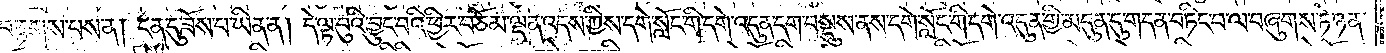བརྟགས་པས་ན། ངན་དུ་ཟོས་པ་ཡིན་ན། དེ་ལྟ་བུའི་བྱུང་བའི་ཕྱིར་བཅོམ་ལྡན་འདས་ཀྱིས་དགེ་སློང་གི་དགེ་འདུན་དག་བསྡུས་ནས་དགེ་སློང་གི་དགེ་འདུན་གྱི་མདུན་དུ་གདན་བཏིང་བ་ལ་བཞུགས་ཏེ་ཉན་
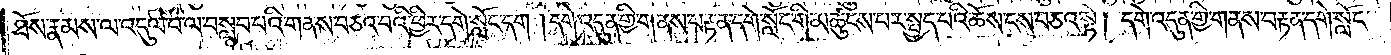ཐོས་རྣམས་ལ་འདུལ་བ་ལ་བསླབ་པའི་གནས་བཅའ་བའི་ཕྱིར་དགེ་སློང་དག །དགེ་འདུན་གྱི་གནས་བརྟན་དགེ་སློང་གི་མཚུངས་པར་སྤྱད་པའི་ཆོས་ངས་བཅའ་སྟེ། དགེ་འདུན་གྱི་གནས་བརྟན་དགེ་སློང་
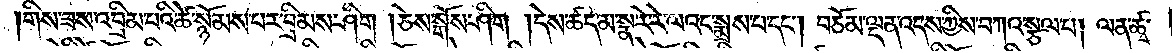གིས་ཟས་འབྲིམ་པའི་ཚེ་སྙོམས་པར་བྲིམས་ཤིག །ཅེས་སྒོས་ཤིག །དེས་ཚད་མ་སྣ་རེ་རེ་ལའང་སྨྲས་པ་དང༌། བཅོམ་ལྡན་འདས་ཀྱིས་བཀའ་སྩལ་པ། ལན་ཚྭ་
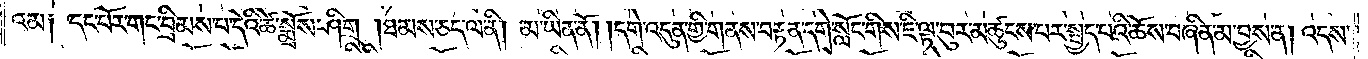འམ༑ དང་པོར་གང་བྲིམས་པ་དེའི་ཚེ་སྨྲོས་ཤིག །ཐམས་ཅད་ལ་ནི། མ་ཡིན་ནོ། །དགེ་འདུན་གྱི་གནས་བརྟན་དགེ་སློང་གིས་ཇི་ལྟར་བུར་མཚུངས་པར་སྤྱད་པའི་ཆོས་བཞིན་མ་བྱས་ན། འདས་
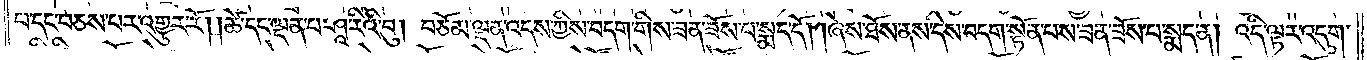པ་དང་བཅས་པར་འགྱུར་རོ། །ཚེ་དང་ལྡན་པ་ཤཱ་རིའི་བུ། བཅོམ་ལྡན་འདས་ཀྱིས་བདག་གིས་ཟན་ཟོས་པ་སྨད་དོ། །ཞེས་ཐོས་ནས་དེས་བདག་སྟོན་པས་ཟན་ཟོས་པ་སྨད་ན། འདི་ལྟར་འདུག་
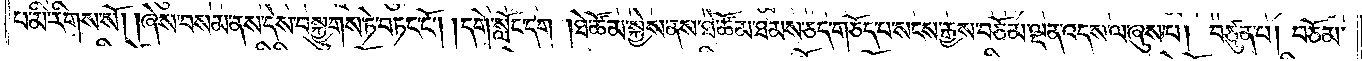པ་མི་རིགས་སོ། །ཞེས་བསམ་ནས་དེས་བསྐྱུགས་ཏེ་བཏང་ངོ༌། །དགེ་སློང་དག །ཐེ་ཚོམ་སྐྱེས་ནས་ཐེ་ཚོམ་ཐམས་ཅད་གཅོད་པ་སངས་རྒྱས་བཅོམ་ལྡན་འདས་ལ་ཞུས་པ། བཙུན་པ། བཅོམ་
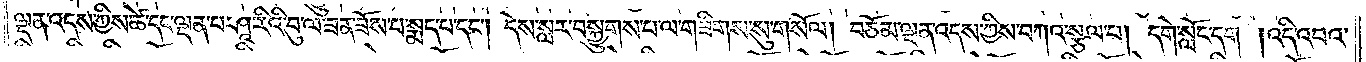ལྡན་འདས་ཀྱིས་ཚེ་དང་ལྡན་པ་ཤཱ་རིའི་བུ་ལ་ཟན་ཟོས་པ་སྨད་པ་དང༌། དེས་སླར་བསྐྱུགས་པ་ལ་གཟིགས་སུ་གསོལ། བཅོམ་ལྡན་འདས་ཀྱིས་བཀའ་སྩལ་པ། དགེ་སློང་དག །འདི་འབའ་
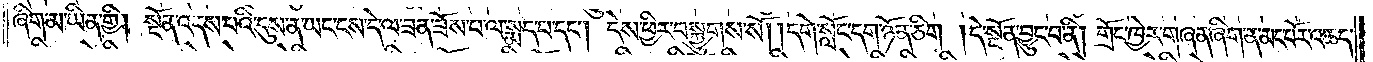ཞིག་མ་ཡིན་གྱི། སྔོན་འདས་པའི་དུས་ན་ཡང་ངས་དེ་ལ་ཟན་ཟོས་པ་ལ་སྨད་པ་དང༌། དེས་ཕྱིར་བསྐྱུགས་སོ། །དགེ་སློང་དག་ཉོན་ཅིག །དེ་སྔོན་བྱུང་བ་ནི། གྲོང་ཁྱེར་གཞན་ཞིག་ན་མང་པོར་འཆད་
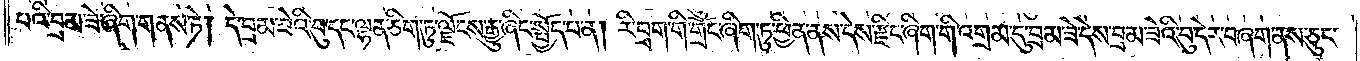པའི་བྲམ་ཟེ་ཞིག་གནས་ཏེ། དེ་བྲམ་ཟེའི་བུ་དང་ལྷན་ཅིག་ཏུ་ལྗོངས་རྒྱུ་ཞིང་སྤྱོད་པ་ན། རི་བྲག་གི་གྲོང་ཞིག་ཏུ་ཕྱིན་ནས་དེས་རྫིང་ཞིག་གི་འགྲམ་དུ་བྲམ་ཟེ་དེས་བྲམ་ཟེའི་བུ་དེར་བཞག་ནས་ཅུང་
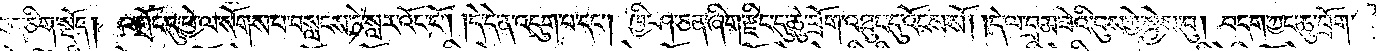ཟད་ཅིག་སྡོད། ང་གྲོང་དུ་ཕྱེ་ལ་སོགས་པ་བསླངས་ཏེ་སླར་འོང་ངོ༌། །དེ་དེ་ན་འདུག་པ་དང༌། ཁྱི་ཤ་ཅན་ཞིག་རྫིང་དུ་ཆུ་བྲོག་འཐུང་དུ་འོངས་སོ། །དེ་ལ་བྲམ་ཟེའི་བུས་ཀྱེ་སྐྱེས་བུ། བདག་ཀྱང་ཆུ་བྲོག་
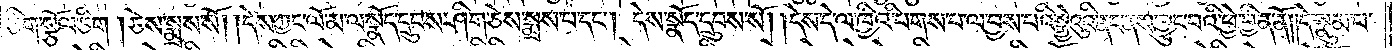ཅིག་སྩོལ་ཅིག །ཅེས་སྨྲས་སོ། །དེས་ཀྱང་ལོ་མ་ལ་སྣོད་དྲུབས་ཤིག་ཅེས་སྨྲས་པ་དང༌། དེས་སྣོད་དྲུབས་སོ། །དེས་དེ་ལ་ཁྱིའི་པགས་པ་ལ་བྱས་པའི་སྒྱེའུའི་ནང་ནས་བྱུང་བའི་ཕྱེ་བྱིན་ནོ། །དེ་སྣུམ་པ་
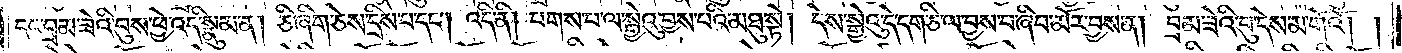དང་བྲམ་ཟེའི་བུས་ཕྱེ་འདི་སྣུམ་ན། ཅི་ཞིག་ཅེས་དྲིས་པ་དང༌། འདི་ནི། པགས་པ་ལ་སྒྱེའུ་བྱས་པའི་མཐུ་སྟེ། དེས་སྒྱེའུ་དེ་དག་ཅི་ལ་བྱས་པ་ཞིབ་མོར་བྱས་ན། བྲམ་ཟེའི་བུ་དེས་མ་གོའོ། །
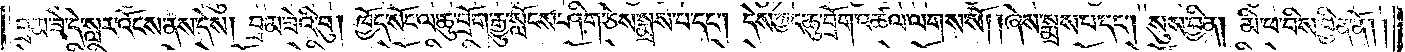བྲམ་ཟེ་དེ་སླར་འོངས་ནས་དེས། བྲམ་ཟེའི་བུ། ཁྱོད་སོང་ལ་ཆུ་བྲོག་རྒྱུ་སློངས་ཤིག་ཅེས་སྨྲས་པ་དང༌། དེས་ཀྱང་ཆུ་བྲོག་འཚལ་ལགས་སོ། །ཞེས་སྨྲས་པ་དང༌། སུས་བྱིན། མི་ཕ་བིས་བྱིན་ནོ། །
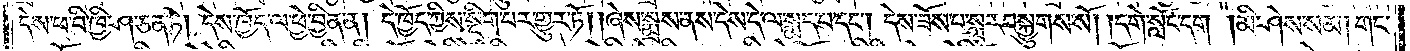དེས་ཕ་བི་ཁྱི་ཤ་ཅན་ཏེ། དེས་ཁྱོད་ལ་ཕྱེ་བྱིན་ན། དེ་ཁྱོད་ཀྱིས་སྡིག་པར་གྱུར་ཏོ། །ཞེས་སྨྲས་ནས་དེས་དེ་ལ་སྨད་པ་དང༌། དེས་ཟོས་པ་སླར་བསྐྱུགས་སོ། །དགེ་སློང་དག །མི་ཤེས་སམ། གང་
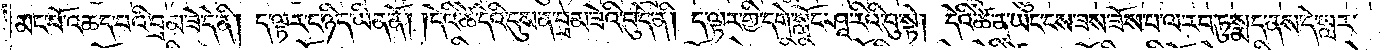མང་པོ་འཆད་པའི་བྲམ་ཟེ་དེ་ནི། ད་ལྟར་ང་ཉིད་ཡིན་ནོ། །དེའི་ཚེ་དེའི་དུས་ན་བྲམ་ཟེའི་བུ་དེ་ནི། ད་ལྟར་གྱི་དགེ་སློང་ཤཱ་རིའི་བུ་སྟེ། དེའི་ཚེ་ན་ཡང་ངས་ཟས་ཟོས་པ་ལ་རབ་ཏུ་སྨད་ནས་དེ་སླར་
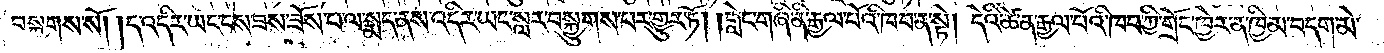བསྐྱུགས་སོ། །ད་འདིར་ཡང་ངས་ཟས་ཟོས་པ་ལ་སྨད་ནས་འདིར་ཡང་སླར་བསྐྱུགས་པར་གྱུར་ཏོ། །གླེང་གཞི་ནི་རྒྱལ་པོའི་ཁབ་ན་སྟེ། དེའི་ཚེས་ན་རྒྱལ་པོའི་ཁབ་ཀྱི་གྲོང་ཁྱེར་ན་ཁྱིམ་བདག་མེ་
